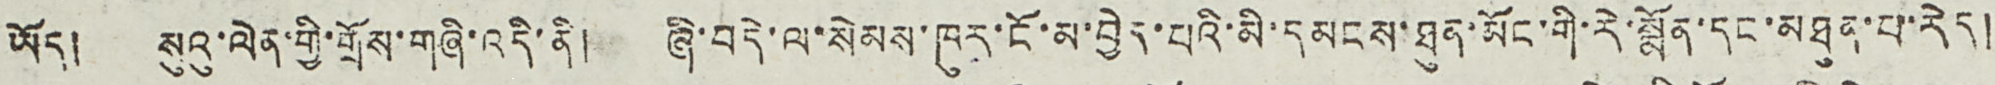ཡོད། སུའུ་ལེན་གྱི་གྲོས་གཞི་འདི་ནི། ཞི་བདེ་ལ་སེམས་ཁུར་ངོ་མ་བྱེད་པའི་མི་དམངས་ཐུན་མོང་གི་རེ་སྨོན་དང་མཐུན་པ་རེད།
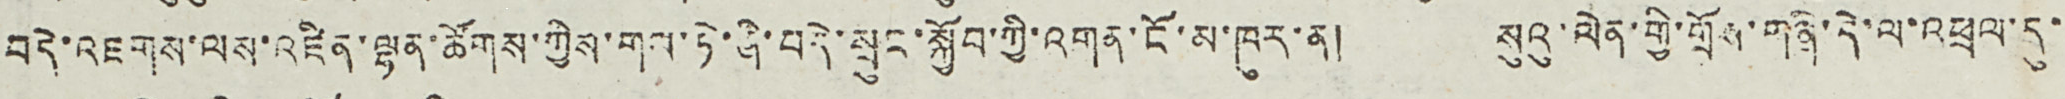བདེ་འཇགས་ལས་འཛིན་ལྷན་ཚོགས་ཀྱིས་གལ་ཏེ་ཞི་བདེ་སྲུང་སྐྱོབ་ཀྱི་འགན་ངོ་མ་ཁུར་ན། སུའུ་ལེན་གྱི་གྲོས་གཞི་དེ་ལ་འཕྲལ་དུ་
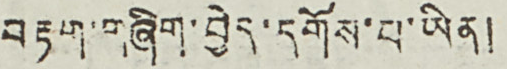བརྟག་གཞིག་བྱེད་དགོས་པ་ཡིན།
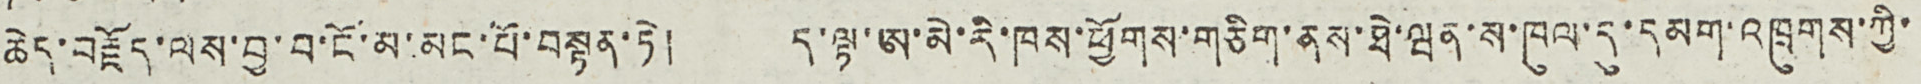ཆེད་བརྗོད་ལས་བྱ་བ་ངོ་མ་མང་པོ་བསྟན་ཏེ། ད་ལྟ་ཨ་མེ་རི་ཁས་ཕྱོགས་གཅིག་ནས་ཐེ་ཝན་ས་ཁུལ་དུ་དམག་འཁྲུགས་ཀྱི་
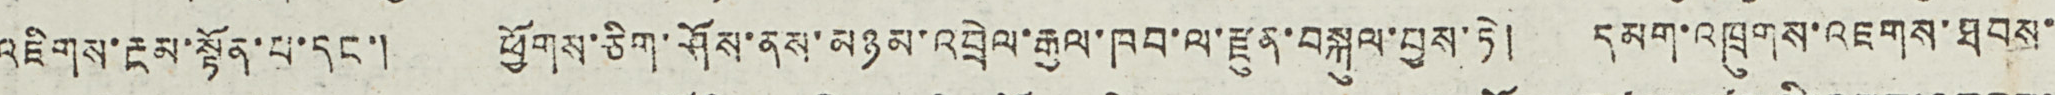འཇིགས་རྔམ་སྟོན་པ་དང་། ཕྱོགས་ཅིག་ཤོས་ནས་མཉམ་འབྲེལ་རྒྱལ་ཁབ་ལ་རྫུན་བསྐུལ་བྱས་ཏེ། དམག་འཁྲུགས་འཇགས་ཐབས་
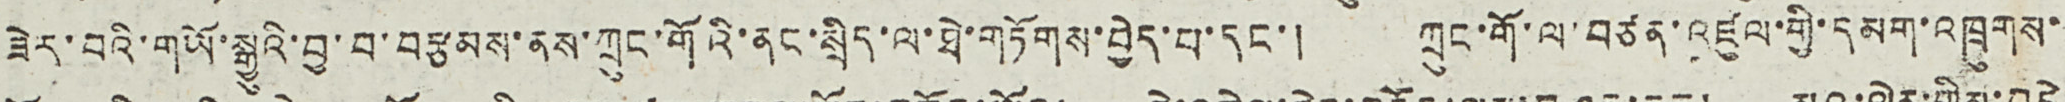ཟེར་བའི་གཡོ་སྒྱུའི་བྱ་བ་བརྩམས་ནས་ཀྲུང་གོའི་ནང་སྲིད་ལ་ཐེ་གཏོགས་བྱེད་པ་དང་། ཀྲུང་གོ་ལ་བཙན་འཛུལ་གྱི་དམག་འཁྲུགས་
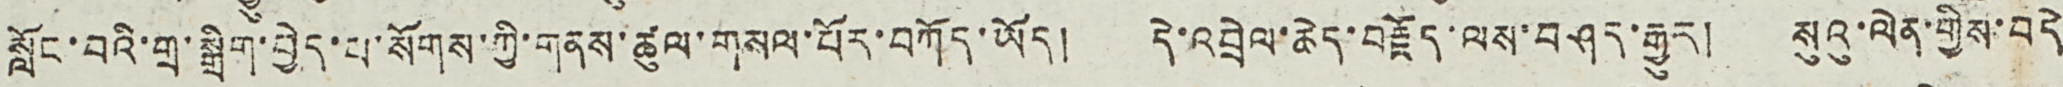སློང་བའི་གྲ་སྒྲིག་བྱེད་པ་སོགས་ཀྱི་གནས་ཚུལ་གསལ་པོར་བཀོད་ཡོད། དེ་འབྲེལ་ཆེད་བརྗོད་ལས་བཤད་རྒྱུར། སུའུ་ལེན་གྱིས་བདེ
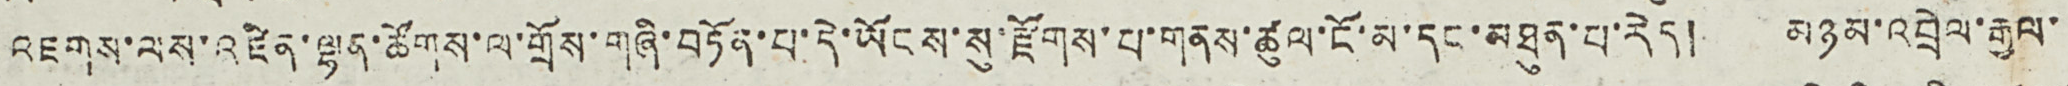འཇགས་ལས་འཛིན་ལྷན་ཚོགས་ལ་གྲོས་གཞི་བཏོན་པ་དེ་ཡོངས་སུ་རྫོགས་པ་གནས་ཚུལ་ངོ་མ་དང་མཐུན་པ་རེད། མཉམ་འབྲེལ་རྒྱལ་
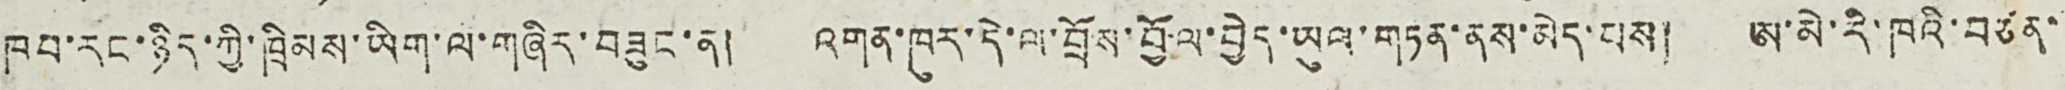ཁབ་རང་ཉིད་ཀྱི་ཁྲིམས་ཡིག་ལ་གཞིར་བཟུང་ན། འགན་ཁུར་དེ་ལ་བྲོས་བྱོལ་བྱེད་ཡུལ་གཏན་ནས་མེད་པས། ཨ་མེ་རི་ཁའི་བཙན་
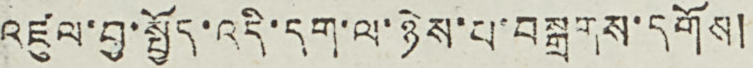འཛུལ་བྱ་སྤྱོད་འདི་དག་ལ་ཉེས་པ་བསྒྲགས་དགོས།
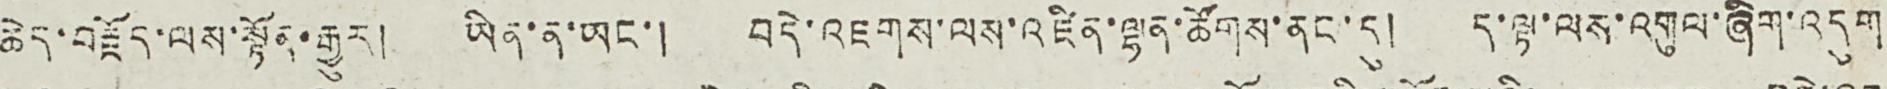ཆེད་བརྗོད་ལས་སྟོན་རྒྱུར། ཡིན་ན་ཡང་། བདེ་འཇགས་ལས་འཛིན་ལྷན་ཚོགས་ནང་དུ། ད་ལྟ་ལས་འགུལ་ཞིག་འདུག
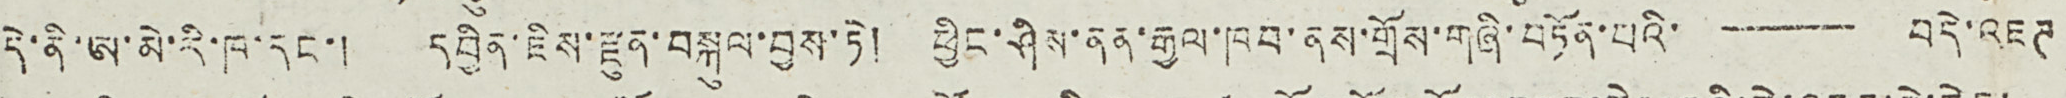དེ་ནི་ཨ་མེ་རི་ཁ་དང་། དབྱིན་ཇིས་རྫུན་བསྐུལ་བྱས་ཏེ། ཕྱིང་ཤིས་ནན་རྒྱལ་ཁབ་ནས་གྲོས་གཞི་བཏོན་པའི་ —— བདེ་འཇཊ
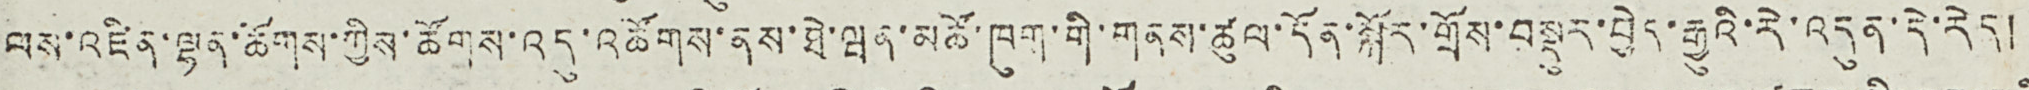ལས་འཛིན་ལྷན་ཚོགས་ཀྱིས་ཚོགས་འདུ་འཚོགས་ནས་ཐེ་ཝན་མཚོ་ཁུག་གི་གནས་ཚུལ་དོན་སྐོར་གྲོས་བསྡུར་བྱེད་རྒྱུའི་རེ་འདུན་དེ་རེད།
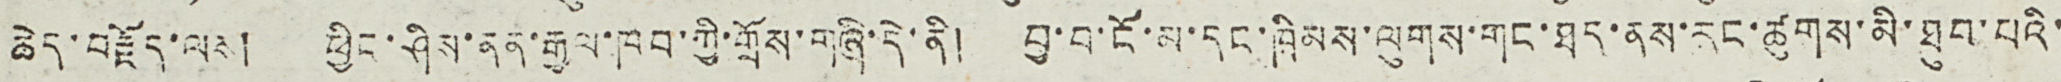ཆེད་བརྗོད་ལས། ཕྱིང་ཤིས་ནན་རྒྱལ་ཁབ་ཀྱི་གྲོས་གཞི་དེ་ནི། བྱ་བ་ངོ་མ་དང་ཁྲིམས་ལུགས་གང་ཐད་ནས་རང་ཚུགས་མི་ཐུབ་པའི་
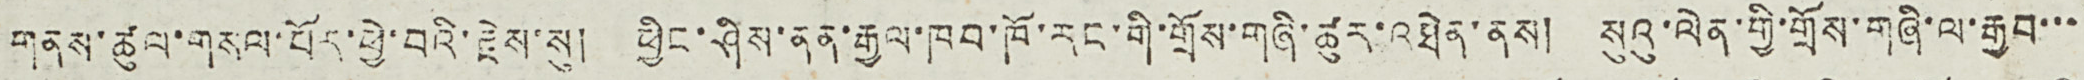གནས་ཚུལ་གསལ་པོར་ཕྱེ་བའི་རྗེས་སུ། ཕྱིང་ཤིས་ནན་རྒྱལ་ཁབ་ཁོ་རང་གི་གྲོས་གཞི་ཚུར་འཐེན་ནས། སུའུ་ལེན་གྱི་གྲོས་གཞི་ལ་རྒྱབ་་་
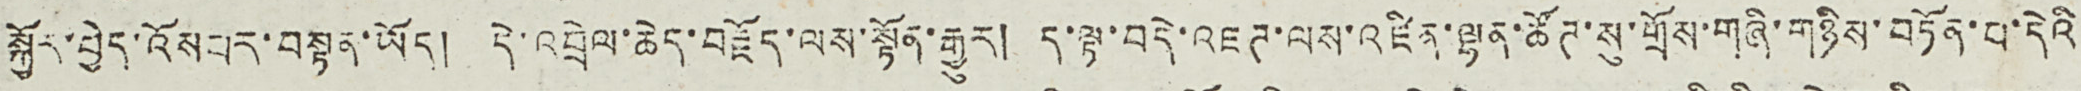སྐྱོར་བྱེད་འོས པར་བསྟན་ཡོད། དེ་འབྲེལ་ཆེད་བརྗོད་ལས་སྟོན་རྒྱུར། ད་ལྟ་བདེ་འཇཊ་ལས་འཛིན་ལྷན་ཚོཊ་སུ་གྲོས་གཞི་གཉིས་བཏོན་པ་དེའི
